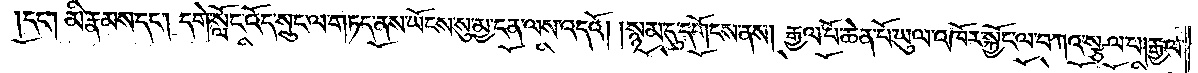དང༌། མི་རྣམས་དང༌། དགེ་སློང་འོད་སྲུང་ལ་གཏད་ནས་ཡོངས་སུ་མྱ་ངན་ལས་འདའོ། །སྙམ་དུ་དགོངས་ནས། རྒྱལ་པོ་ཆེན་པོ་ཡུལ་འཁོར་སྐྱོང་ལ་བཀའ་སྩལ་པ། རྒྱལ་
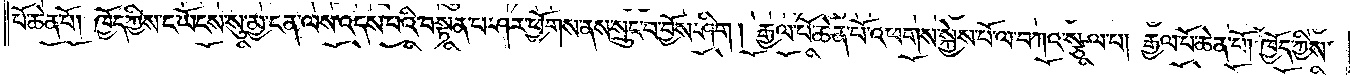པོ་ཆེན་པོ། ཁྱོད་ཀྱིས་ང་ཡོངས་སུ་མྱ་ངན་ལས་འདས་པའི་བསྟན་པ་ཤར་ཕྱོགས་ནས་སྲུང་བ་བྱོས་ཤིག། རྒྱལ་པོ་ཆེན་པོ་འཕགས་སྐྱེས་པོ་ལ་བཀའ་སྩལ་པ། རྒྱལ་པོ་ཆེན་པོ། ཁྱོད་ཀྱིས་
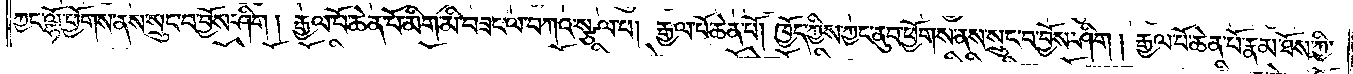ཀྱང་ལྷོ་ཕྱོགས་ནས་སྲུང་བ་བྱོས་ཤིག། རྒྱལ་པོ་ཆེན་པོ་མིག་མི་བཟང་ལ་བཀའ་སྩལ་པ། རྒྱལ་པོ་ཆེན་པོ། ཁྱོད་ཀྱིས་ཀྱང་ནུབ་ཕྱོགས་ནས་སྲུང་བ་བྱོས་ཤིག། རྒྱལ་པོ་ཆེན་པོ་རྣམ་ཐོས་ཀྱི་
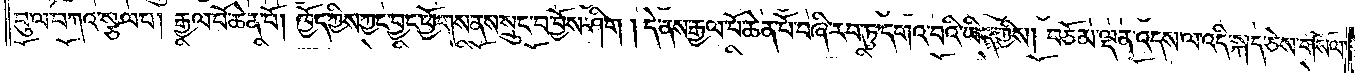བུ་ལ་བཀའ་སྩལ་པ། རྒྱལ་པོ་ཆེན་པོ། ཁྱོད་ཀྱིས་ཀྱང་བྱང་ཕྱོགས་ནས་སྲུང་བ་བྱོས་ཤིག། དེ་ནས་རྒྱལ་པོ་ཆེན་པོ་བཞི་རབ་ཏུ་དགའ་བའི་ཡིད་ཀྱིས། བཅོམ་ལྡན་འདས་ལ་འདི་སྐད་ཅེས་གསོལ་
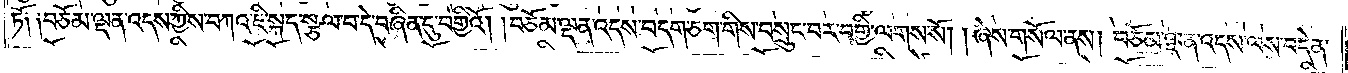ཏོ༑ ༑བཅོམ་ལྡན་འདས་ཀྱིས་བཀའ་ཇི་སྐད་སྩལ་པ་དེ་བཞིན་དུ་བགྱིའོ། །བཅོམ་ལྡན་འདས་བདག་ཅག་གིས་བསྲུང་བར་བགྱི་ལགས་སོ། །ཞེས་གསོལ་ནས། བཅོམ་ལྡན་འདས་ལས་བདེན་
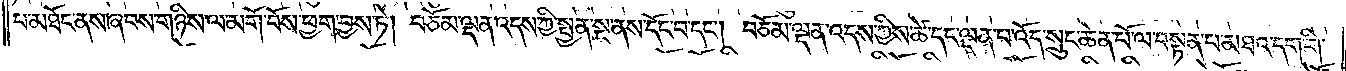པ་མཐོང་ནས་ཞབས་གཉིས་ལ་མགོ་བོས་ཕྱག་བྱས་ཏེ། བཅོམ་ལྡན་འདས་ཀྱི་སྤྱན་སྔ་ནས་དོང་བ་དང༌། བཅོམ་ལྡན་འདས་ཀྱིས་ཚེ་དང་ལྡན་པ་འོད་སྲུང་ཆེན་པོ་ལ་བསྟན་པ་མཐའ་དག་གི་
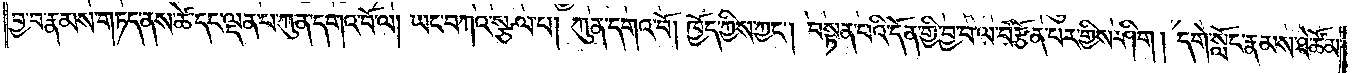བྱ་བ་རྣམས་གཏད་ནས་ཚེ་དང་ལྡན་པ་ཀུན་དགའ་བོ་ལ། ཡང་བཀའ་སྩལ་པ། ཀུན་དགའ་བོ། ཁྱོད་ཀྱིས་ཀྱང༌། བསྟན་པའི་དོན་གྱི་བྱ་བ་ལ་བརྩོན་པར་གྱིས་ཤིག། དགེ་སློང་རྣམས་ཐེ་ཚོམ་
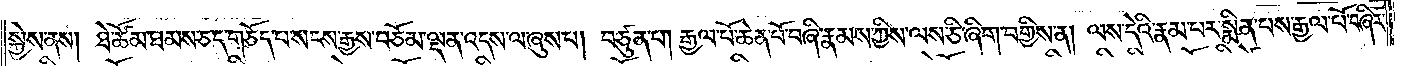སྐྱེས་ནས། ཐེ་ཚོམ་ཐམས་ཅད་གཅོད་པ་སངས་རྒྱས་བཅོམ་ལྡན་འདས་ལ་ཞུས་པ། བཙུན་པ། རྒྱལ་པོ་ཆེན་པོ་བཞི་རྣམས་ཀྱིས་ལས་ཅི་ཞིག་བགྱིས་ན། ལས་སྡེའི་རྣམ་པར་སྨིན་པས་རྒྱལ་པོ་བཞིར་
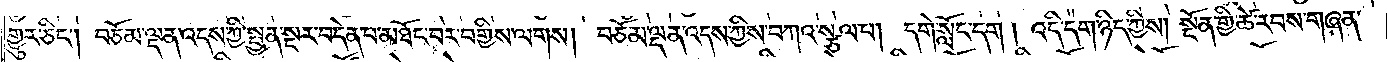གྱུར་ཅིང༌། བཅོམ་ལྡན་འདས་ཀྱི་སྤྱན་སྔར་བདེན་པ་མཐོང་བར་བགྱིས་ལགས། བཅོམ་ལྡན་འདས་ཀྱིས་བཀའ་སྩལ་པ། དགེ་སློང་དག། འདི་དག་ཉིད་ཀྱིས། སྔོན་གྱི་ཚེ་རབས་གཞན་
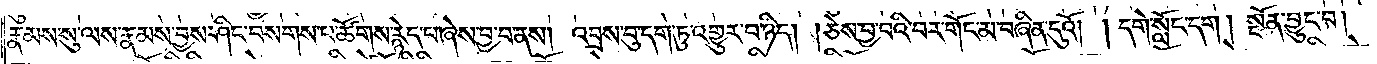རྣམས་སུ་ལས་རྣམས་བྱས་ཤིང་བསགས་པ་ཚོགས་རྙེད་པ་ཞེས་བྱ་བ་ནས། འབྲས་བུ་དག་ཏུ་འགྱུར་བ་ཉིད། །ཅེས་བྱ་བའི་བར་གོང་མ་བཞིན་དུའོ། །དགེ་སློང་དག། སྔོན་བྱུང་བ།
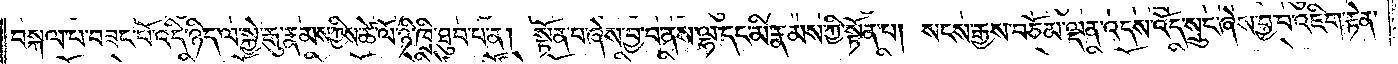བསྐལ་པ་བཟང་པོ་འདི་ཉིད་ལ་སྐྱེ་རྒུ་རྣམས་ཀྱིས་ཚེ་ལོ་ཉི་ཁྲི་ཐུབ་པ་ན། སྟོན་པ་ཞེས་བྱ་བ་ནས་ལྷ་དང་མི་རྣམས་ཀྱི་སྟོན་པ། སངས་རྒྱས་བཅོམ་ལྡན་འདས་འོད་སྲུང་ཞེས་བྱ་བ་འཇིག་རྟེན་
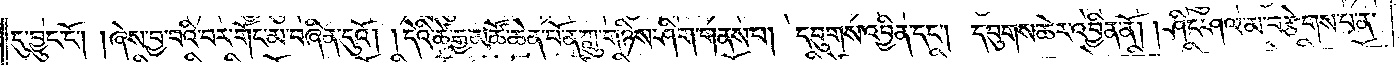དུ་བྱུང་ངོ༌། །ཞེས་བྱ་བའི་བར་གོང་མ་བཞིན་དུའོ། །དེའི་ཚེ་རྒྱ་མཚོ་ཆེན་པོ་ན་ཀླུ་གཉིས་ཤིག་གནས་པ། དབུགས་འབྱིན་དང༌། དབུགས་ཆེར་འབྱིན་ནོ། །ཤིང་ཤལ་མ་བརྩེགས་པ་ན་
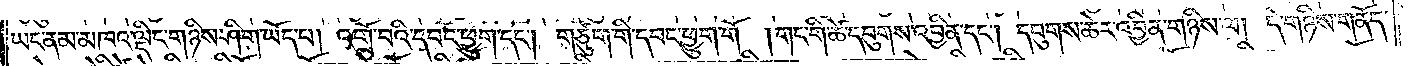ཡང་ནམ་མཁའ་ལྡིང་གཉིས་ཤིག་ཡོད་པ། འགྲོ་བའི་དབང་ཕྱུག་དང༌། གཙུག་གི་དབང་ཕྱུག་གོ །གང་གི་ཚེ་དབུགས་འབྱིན་དང༌། དབུགས་ཆེར་འབྱིན་གཉིས་ལ། དེ་གཉིས་གནོད་
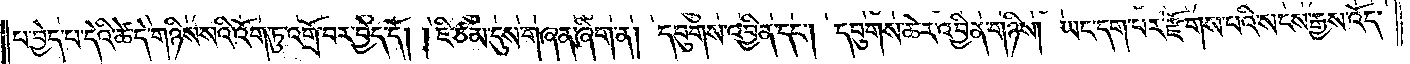པ་བྱེད་པ་དེའི་ཚེ་དེ་གཉིས་སའི་འོག་ཏུ་འགྲོ་བར་བྱེད་དོ། །ཇི་ཙམ་དུས་གཞན་ཞིག་ན། དབུགས་འབྱིན་དང༌། དབུགས་ཆེར་འབྱིན་གཉིས། ཡང་དག་པར་རྫོགས་པའི་སངས་རྒྱས་འོད་
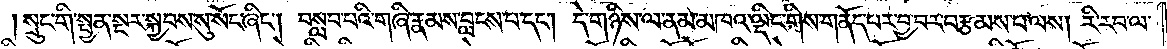སྲུང་གི་སྤྱན་སྔར་སྐྱབས་སུ་སོང་ཞིང༌། བསླབ་པའི་གཞི་རྣམས་བླངས་པ་དང༌། དེ་གཉིས་ལ་ནམ་མཁའ་ལྡིང་གིས་གནོད་པར་བྱ་བར་བརྩམས་པ་ལས། རི་རབ་ལ་
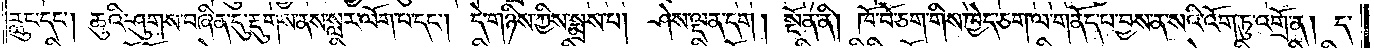རླུང་དང༌། ཆུའི་ཤུགས་བཞིན་དུ་རྡུགས་ནས་སླར་ལོག་པ་དང༌། དེ་གཉིས་ཀྱིས་སྨྲས་པ། ཤེས་ལྡན་དག། སྔོན་ནི། ཁོ་བོ་ཅག་གིས་ཁྱེད་ཅག་ལ་གནོད་པ་བྱས་ན་སའི་འོག་ཏུ་འགྲོ་ན། ད་
